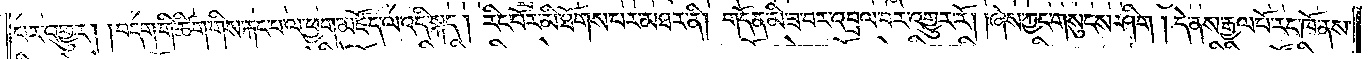པར་འགྱུར། །བདག་གི་ཚིག་གིས་རྐང་པ་ལ་ཕྱག་མཛོད་ལ་འདི་སྐད། རིང་པོར་མི་ཐོགས་པར་མཐར་ནི། གདོན་མི་ཟ་བར་འབྲལ་བར་འགྱུར་རོ། །ཞེས་ཀྱང་གསུངས་ཤིག །དེ་ནས་རྒྱལ་པོ་རང་ཁོ་ནས་
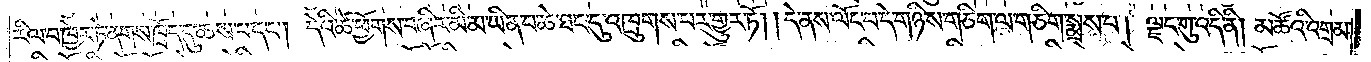རིལ་བ་ཁྱེར་ཏེ་ནགས་ཁྲོད་དུ་ཆས་པ་དང༌། དེའི་ཚེ་ཕྱོགས་བཞིར་མི་མ་ཡིན་པ་ཆེ་ཐང་དུ་འཁྲུགས་པར་གྱུར་ཏོ། །དེ་ནས་ལོང་བ་དེ་གཉིས་གཅིག་ལ་གཅིག་སྨྲས་པ། ལྗང་གུ་འདི་ནི། མཚོའི་འགྲམ་
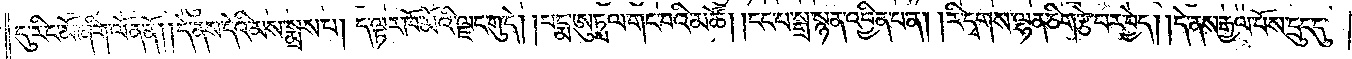དུ་རིང་མོ་ཞིག་ལོན་ནོ། །དེ་ནས་དེའི་མས་སྨྲས་པ། ད་ལྟར་ཁོ་མོའི་ལྗང་གུ་དེ། །པདྨ་ཨུཏྤལ་གང་བའི་མཚོ། །ངང་པ་སྒྲ་སྙན་འབྱིན་པ་ན། །རི་དྭགས་ལྷན་ཅིག་རྩེ་བར་བྱེད། །དེ་ནས་རྒྱལ་པོས་དྲུང་དུ་
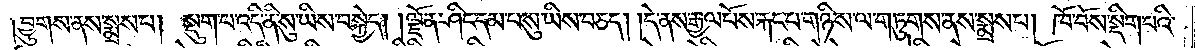བྱུགས་ནས་སྨྲས་པ། སྡུག་པ་འདི་ནི་སུ་ཡིས་བསྐྱེད། །ལྗོན་ཤིང་དམ་པ་སུ་ཡིས་བཅད། །དེ་ནས་རྒྱལ་པོས་རྐང་པ་གཉིས་ལ་གཏུགས་ནས་སྨྲས་པ། ཁོ་བོས་སྡིག་པའི་
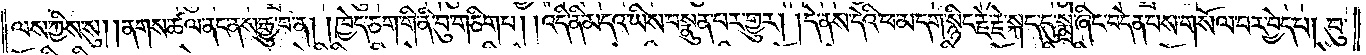ལས་ཀྱིས་སུ། །ནགས་ཚལ་ནང་ནས་རྒྱུ་བ་ན། །ཁྱེད་ཅག་གི་ནི་བུ་གཅིག་པ། །འདི་ནི་མདའ་ཡིས་བསྣུན་པར་གྱུར། །དེ་ནས་དེའི་ཕ་མ་དག་སྙིང་རྗེ་རྗེ་སྐད་དུ་སྨྲེ་ཞིང་བདེན་པས་གསོལ་པར་བྱེད་པ། བུ་
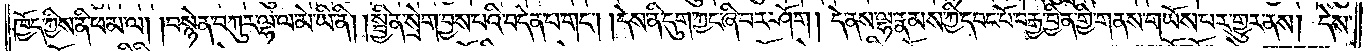ཁྱོད་ཀྱིས་ནི་ཕ་མ་ལ། །བསྙེན་བཀུར་ལྷ་ལ་མེ་ཡི་ནི། །སྦྱིན་སྲེག་བྱས་པའི་བདེན་པ་གང༌། །དེས་ནི་དུག་ཀྱང་ཞི་བར་ཤོག། དེ་ནས་ལྷ་རྣམས་ཀྱི་དབང་པོ་བརྒྱ་བྱིན་གྱི་གནས་གཡོས་པར་གྱུར་ནས། དེས་
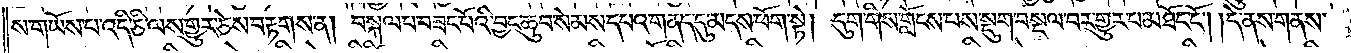ས་གཡོས་པ་འདི་ཅི་ལས་གྱུར་ཅེས་བརྟགས་ན། བསྐལ་པ་བཟང་པོའི་བྱང་ཆུབ་སེམས་དཔའ་གནད་དུ་མདས་ཕོག་སྟེ། དུག་གིས་གློངས་པས་སྡུག་བསྔལ་བར་གྱུར་པ་མཐོང་ངོ༌། །དེ་ནས་གནས་
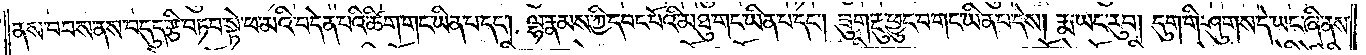ནས་བབས་ནས་བདུད་རྩི་བཏབ་སྟེ་ཕ་མའི་བདེན་པའི་ཚིག་གང་ཡིན་པ་དང༌། ལྷ་རྣམས་ཀྱི་དབང་པོའི་མཐུ་གང་ཡིན་པ་དང༌། ཟུག་རྔུ་ཕྱུང་བ་གང་ཡིན་པ་དེས། རྨ་ཡང་རུབ། དུག་གི་ཤུགས་དེ་ཡང་ཞི་ནས་
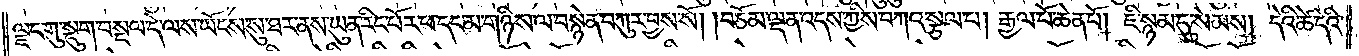ལྗང་གུ་སྡུག་བསྔལ་དེ་ལས་ཡོངས་སུ་ཐར་ནས་ཡུན་རིང་པོར་ཕ་དང་མ་གཉིས་ལ་བསྙེན་བཀུར་བྱས་སོ། །བཅོམ་ལྡན་འདས་ཀྱིས་བཀའ་སྩལ་པ། རྒྱལ་པོ་ཆེན་པོ། ཇི་སྙམ་དུ་སེམས། དེའི་ཚེ་དེའི་
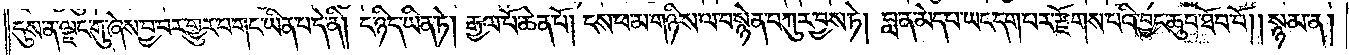དུས་ན་ལྗང་གུ་ཞེས་བྱ་བར་གྱུར་པ་གང་ཡིན་པ་དེ་ནི། ང་ཉིད་ཡིན་ཏེ། རྒྱལ་པོ་ཆེན་པོ། ངས་ཕ་མ་གཉིས་ལ་བསྙེན་བཀུར་བྱས་ཏེ། བླ་ན་མེད་པ་ཡང་དག་པར་རྫོགས་པའི་བྱང་ཆུབ་ཐོབ་བོ། །སྙམ་ན།
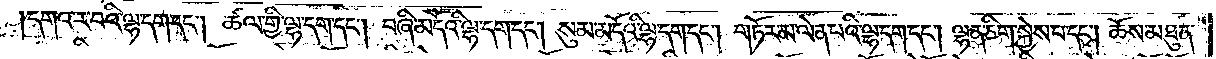།དགའ་ར་བའི་ལྷ་དག་དང༌། ཚལ་གྱི་ལྷ་དག་དང༌། བཞི་མདོའི་ལྷ་དག་དང༌། སུམ་མདོའི་ལྷ་དག་དང༌། གཏོར་མ་ལེན་པའི་ལྷ་དག་དང༌། ལྷན་ཅིག་སྐྱེས་པ་དང༌། ཆོས་མཐུན་
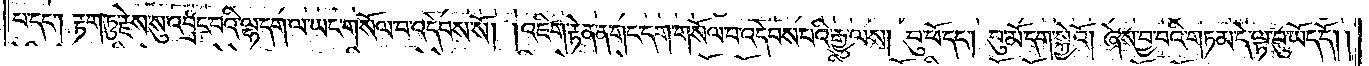པ་དང༌། རྟག་ཏུ་རྗེས་སུ་འབྲང་བའི་ལྷ་དག་ལ་ཡང་གསོལ་བ་འདེབས་སོ། །འཇིག་རྟེན་ན་གང་དག་གསོལ་པ་འདེབས་པའི་རྒྱུ་ལས། བུ་ཕོ་དང༌། བུ་མོ་དག་སྐྱེའོ། །ཞེས་བྱ་བའི་གཏམ་དེ་ལྟ་བུ་ཡོད་དོ། །
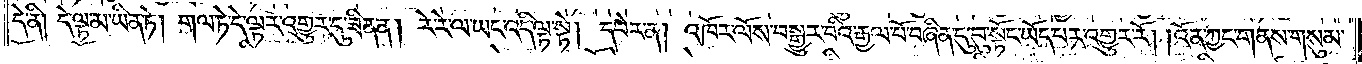དེ་ནི། དེ་ལྟ་མ་ཡིན་ཏེ། གལ་ཏེ་དེ་ལྟར་འགྱུར་དུ་ཟིན་ན། རེ་རེ་ལ་ཡང་འདི་ལྟ་སྟེ། དཔེར་ན། འཁོར་ལོས་བསྒྱུར་བའི་རྒྱལ་པོ་བཞིན་དུ་བུ་སྟོང་ཡོད་པར་འགྱུར་རོ། །འོན་ཀྱང་གནས་གསུམ་
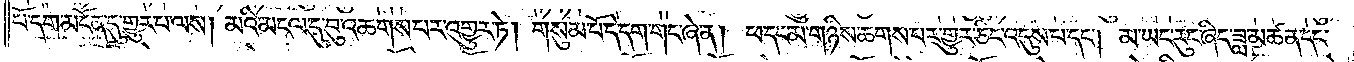པོ་དག་མངོན་དུ་གྱུར་པ་ལས། མའི་མངལ་དུ་བུ་འཆགས་པར་འགྱུར་ཏེ། གསུམ་པོ་དེ་དག་གང་ཞེ་ན། ཕ་དང་མ་གཉིས་ཆགས་པར་གྱུར་ཅིང་འདུས་པ་དང༌། མ་ཡང་རུང་ཞིང་ཟླ་མཚན་དང་
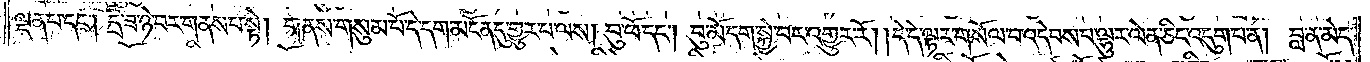ལྡན་པ་དང༌། དྲི་ཟ་ཉེ་བར་གནས་པ་སྟེ། གནས་གསུམ་པོ་དེ་དག་མངོན་དུ་གྱུར་པ་ལས། བུ་ཕོ་དང༌། བུ་མོ་དག་སྐྱེ་བར་འགྱུར་རོ། །དེ་དེ་ལྟར་གསོལ་བ་འདེབས་པ་ལྷུར་ལེན་ཅིང་འདུག་པ་ན། བླ་ན་མེད་
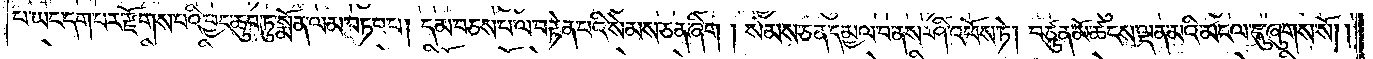པ་ཡང་དག་པར་རྫོགས་པའི་བྱང་ཆུབ་ཏུ་སྨོན་ལམ་བཏབ་པ། དམ་བཅས་པ་ལ་བརྟེན་པའི་སེམས་ཅན་ཞིག །སེམས་ཅན་དམྱལ་བ་ནས་ཤི་འཕོས་ཏེ། བཙུན་མོ་ཚངས་ལྡན་མའི་མངལ་དུ་ཞུགས་སོ། །
